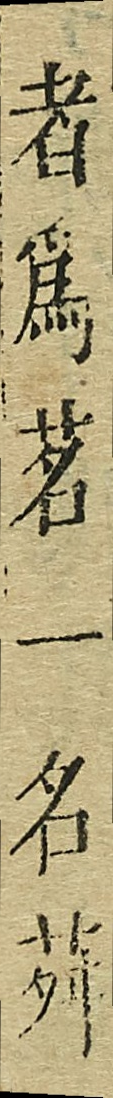者為茗一名荈
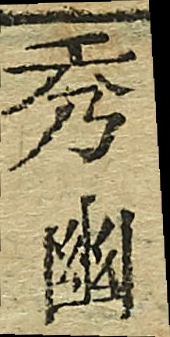秀幽
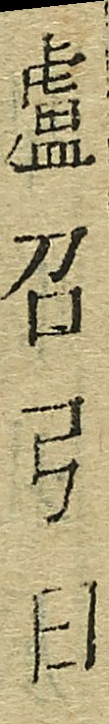盧召弓曰
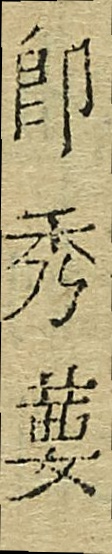即秀要
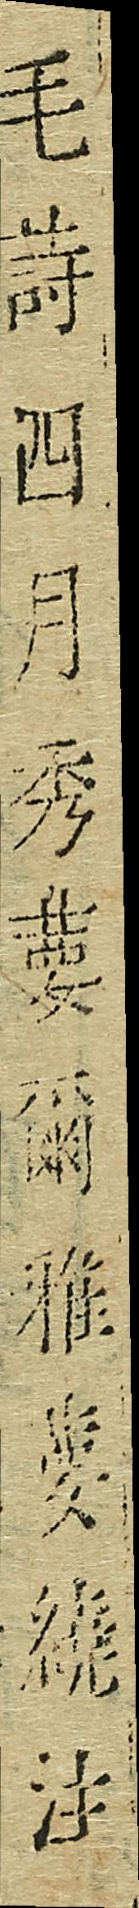毛詩四月秀要爾雅變繞注
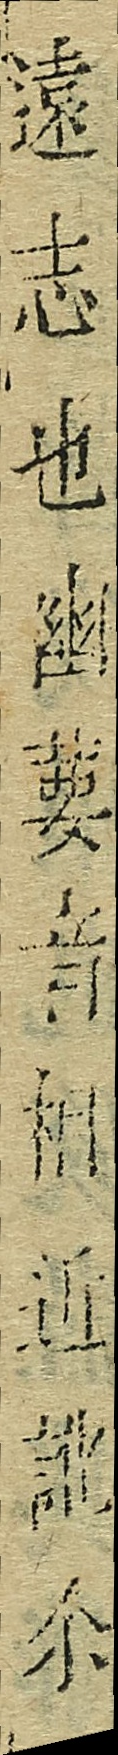遠志也幽要音相近訛荼
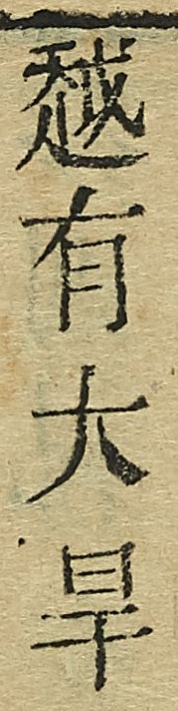越有大旱
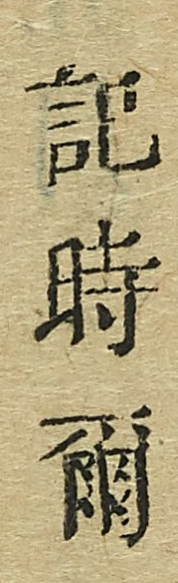記時爾
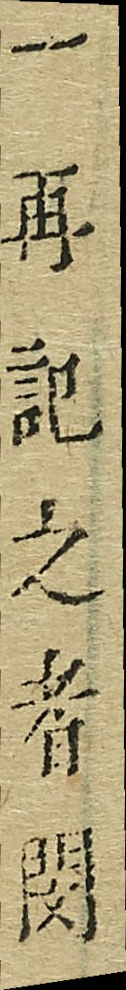一再記之者閔
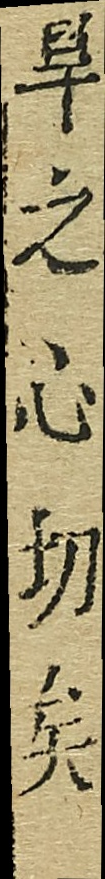旱之心切矣
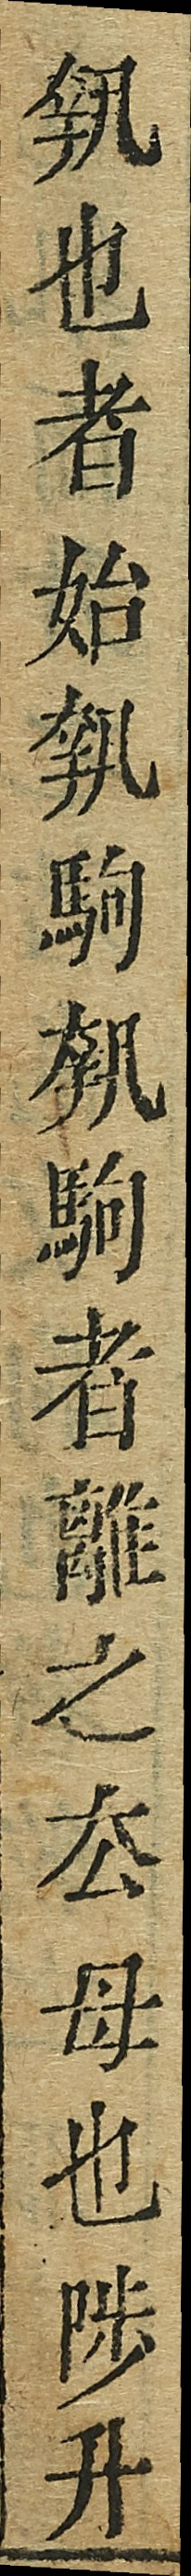執也者始釩駒釩駒者離之公母也陟升
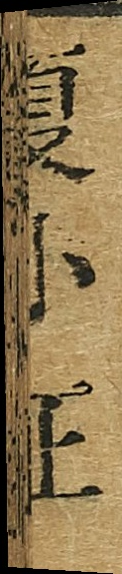夏小正
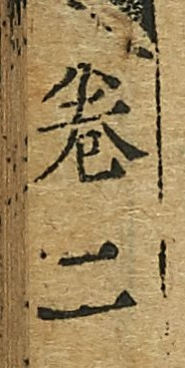卷二
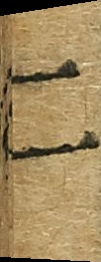二
